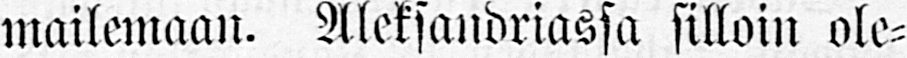mailemaan. Aleksandriassa silloin ole-
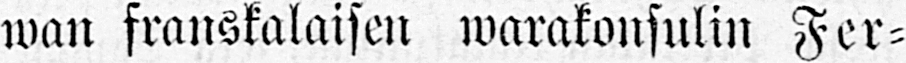wan franskalaisen warakonsulin Fer-
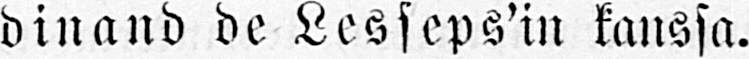dinand de Lesseps'in kanssa.
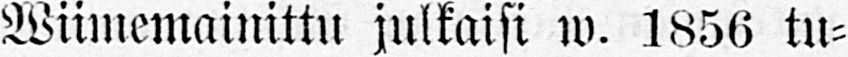Wiimemainittu julkaisi w. 1856 tu-
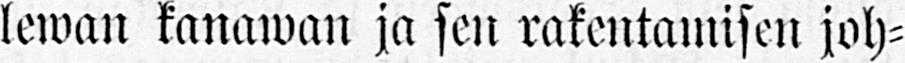lewan kanawan ja sen rakentamisen joh-
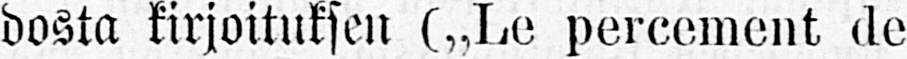dosta kirjoituksen (˶Le percement de
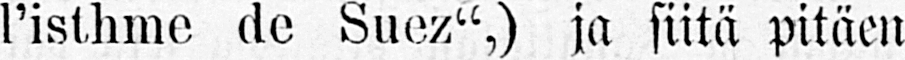l'isthme de Suez",) ja siitä pitäen
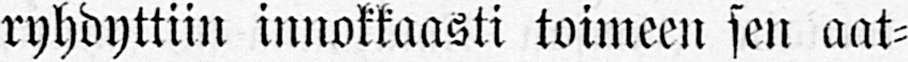ryhdyttiin innokkaasti toimeen sen aat-
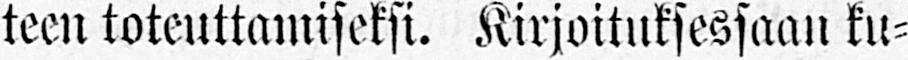teen toteuttamiseksi. Kirjoituksessaan ku-
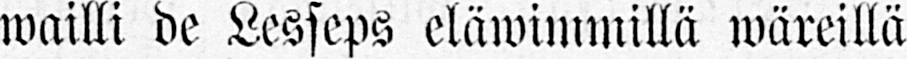wailli de Lesseps eläwimmillä wäreillä
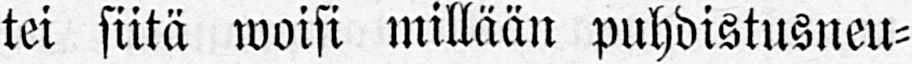tei siitä woisi millään puhdistusneu-
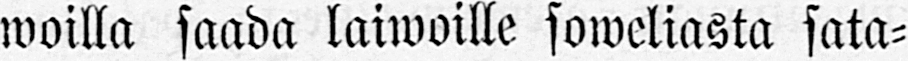woilla saada laiwoille soweliasta sata-
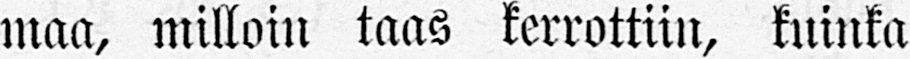maa, milloin taas kerrottiin, kuinka
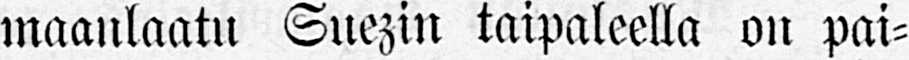maanlaatu Suezin taipaleella on pai-
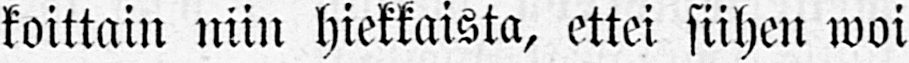koittain niin hiekkaista, ettei siihen woi
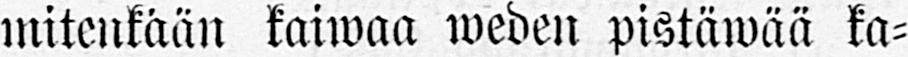mitenkään kaiwaa weden pistäwää ka-
